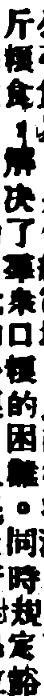斤粮食，解決了羣衆口粮的困難。同時規定豁
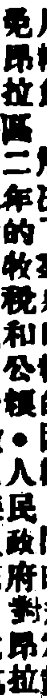免昂拉區二年的牧稅和公粮。人民政府對昂拉
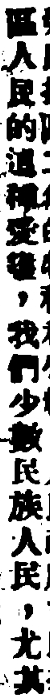區人民的這種愛護，我們少數民族人民，尤其
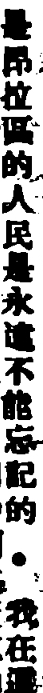是昂拉區的人民是永遠不能忘記的 。 我在這
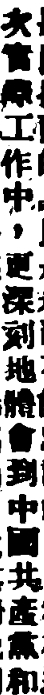次世紀工作中，更深刻地體會到中國共產黨和
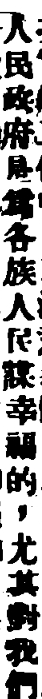人民政府是爲各族人民謀幸福的，尤其對我們
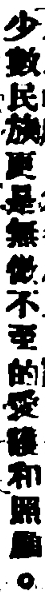少數民族更是無微不至的愛護和照顧。
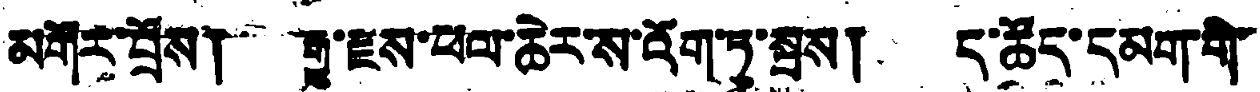མགོར་བྲོས། རྒྱུ་རྫས་ཕབ་ཆེར་ས་འོག་ཏུ་སྦས། ད་ཚོད་དམག་གི་
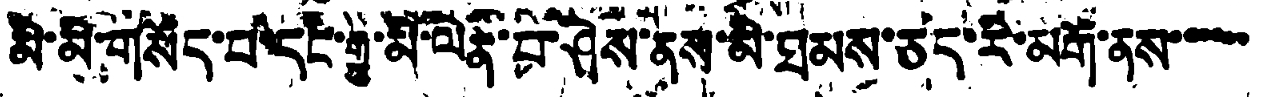མི་མི་གསོད་པ་དང་རྒྱུ་མི་ལེན་བ་ཤེས་ནས་མི་ཐམས་ཙད་རི་མགོ་ནས་་་་་
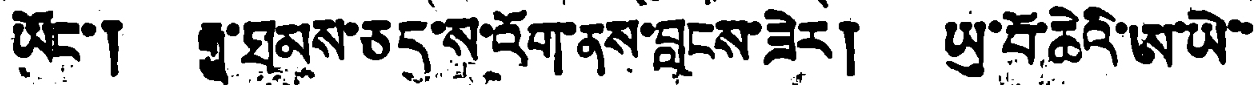ཡོང་། རྒྱུ་ཐམས་ཅད་ས་འོག་ནས་བླངས་ཟེར། ཡུ་བོ་ཆེའི་ཨ་ཡེ་་
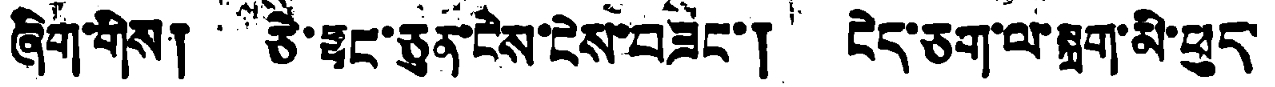ཞིག་གིས། ཅི་ཧྥང་ཅུན་ངེས་ངེས་བཟང་། ངེད་ཅག་ལ་སྐྲག་མི་ཕུད་
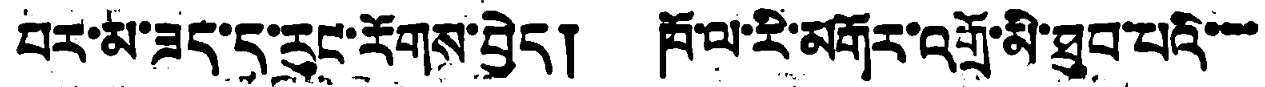བར་མ་ཟད་ད་རུང་རོགས་བྱེད། ཁོ་ལ་རི་མགོར་འགྲོ་མི་ཐུབ་པའི་་་་
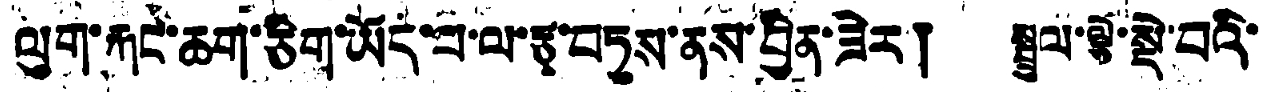ལུག་རྐང་ཆག་ཅིག་ཡོད་པ་ལ་རྩྭ་བཏུས་ནས་བྱིན་ཟེར། སྦྲུལ་ལྕེ་སྡེ་བའི་
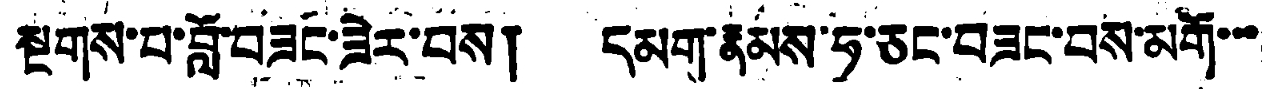སྔགས་པ་བློ་བཟང་ཟེར་བས། དམག་རྣམས་ཧ་ཅང་བཟང་བས་མགོ་་་
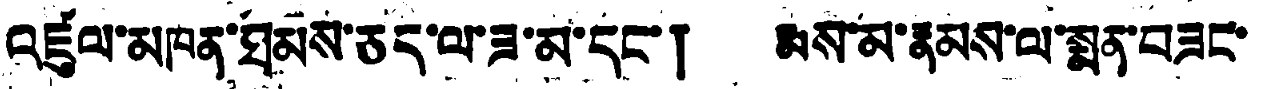འཛུལ་མཁན་ཐམས་ཅད་ལ་ཟ་མ་དང་། རྨས་མ་རྣམས་ལ་སྨན་བཟང་
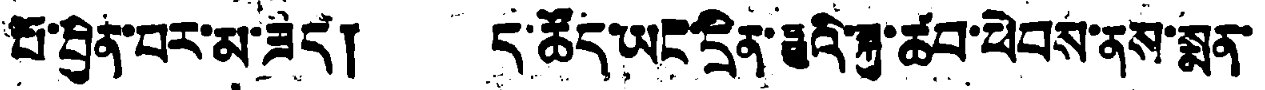པོ་བྱིན་པར་མ་ཟད། ད་ཚོད་ཡང་དྲིན་ཧྥུའི་སྐུ་ཚབ་ཕེབས་ནས་སྨན་
